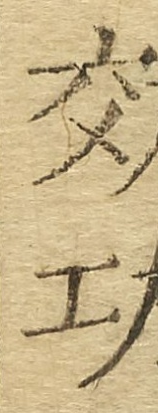効功
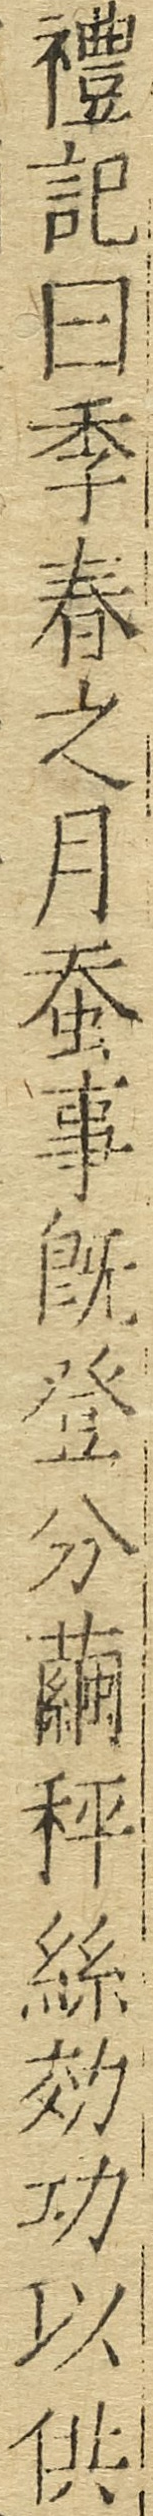禮記曰季春之月蠶事旣登分繭秤絲効功以供
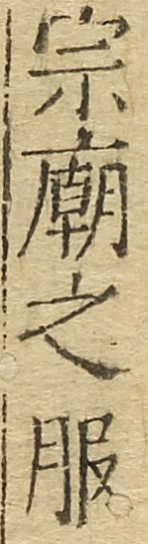宗廟之服
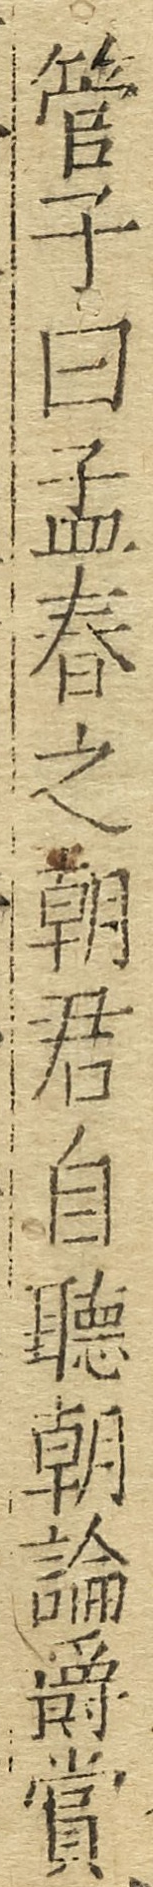管子曰孟春之朝君自聽朝論爵賞
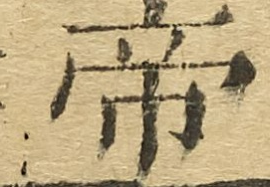帝
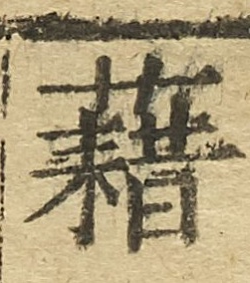藉
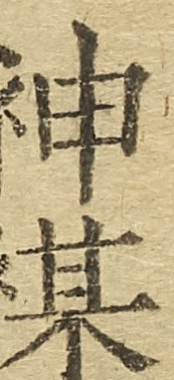神禖
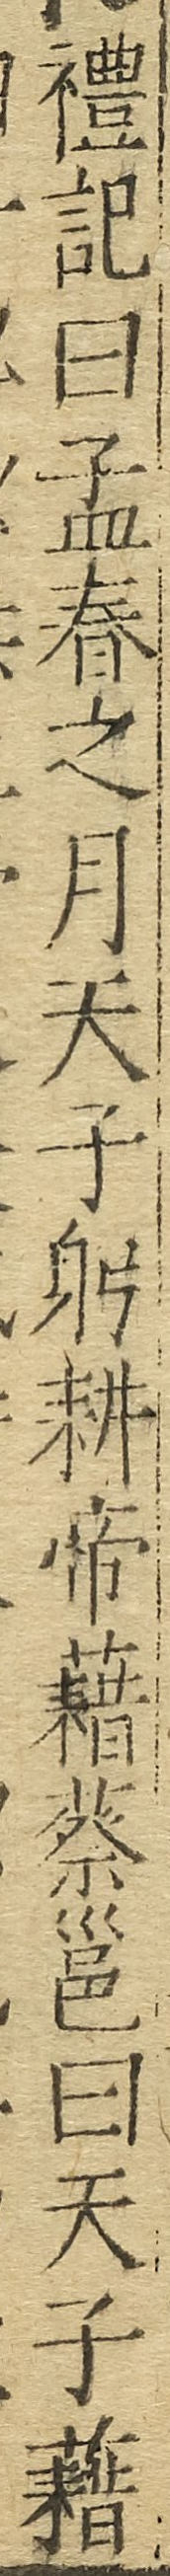禮記曰孟春之月天子躬耕帝藉蔡邕曰天子藉
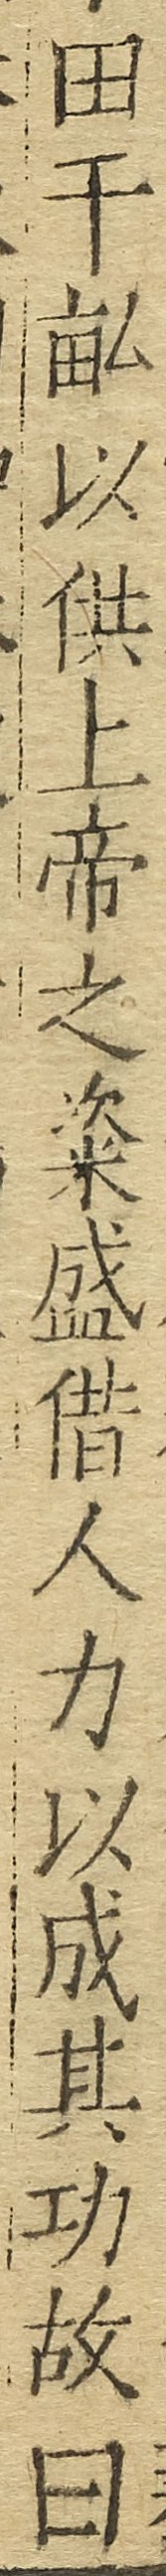田千畆以供上帝之粢盛借人力以成其功故曰
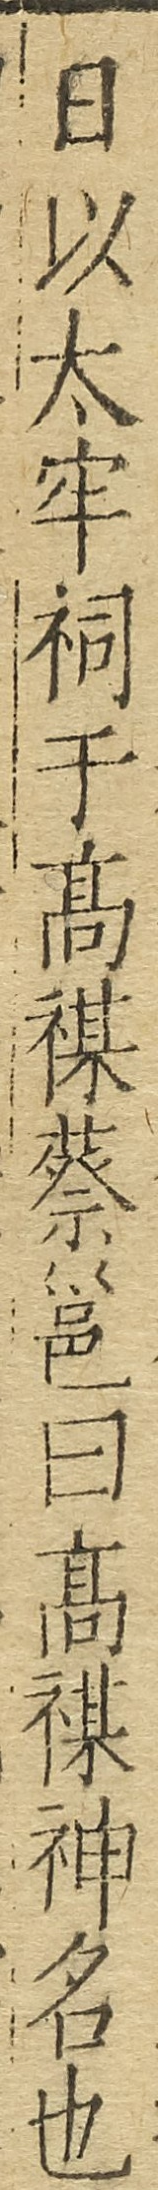日以太牢祠于高禖蔡邕曰高禖神名也
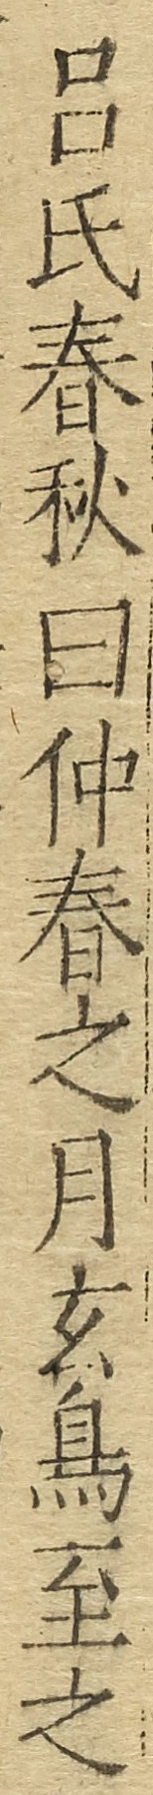呂氏春秋曰仲春之月玄鳥至之
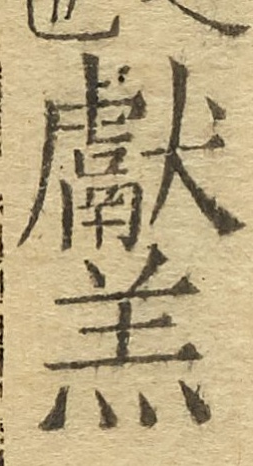獻羔
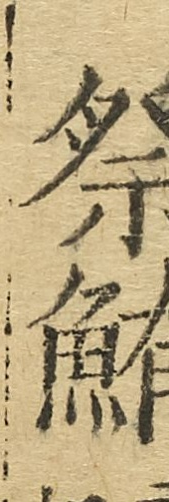祭鮪
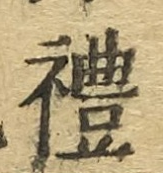禮
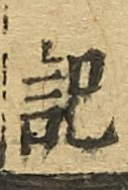記
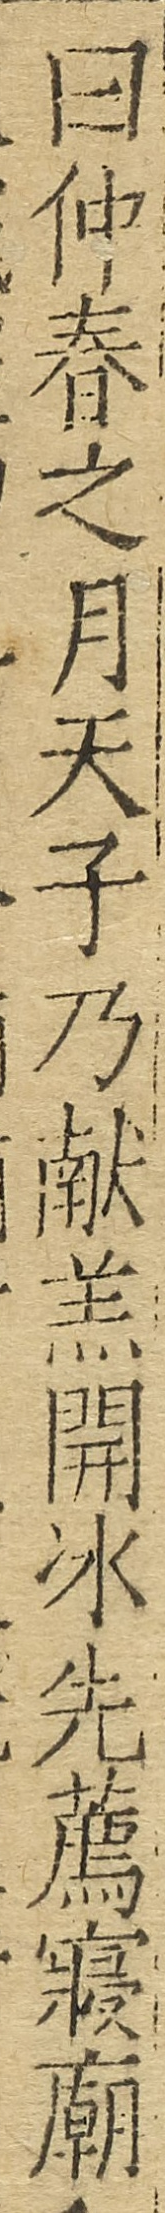曰仲春之月天子乃獻羔開冰先薦寢廟
